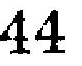44
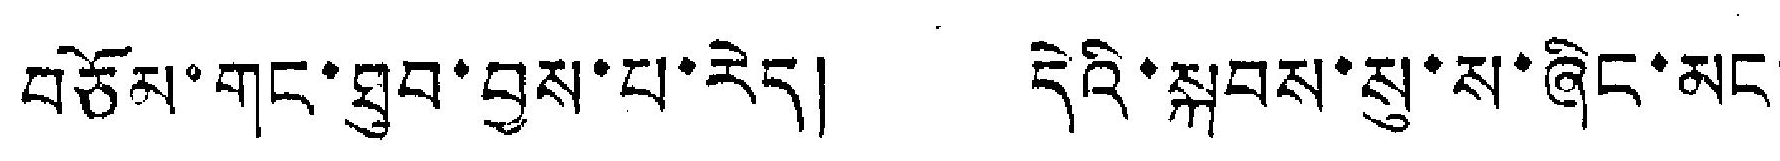བཅོམ་གང་ཐུབ་བྱས་པ་རེད། དེའི་སྐབས་སུ་ས་ཞིང་མང་
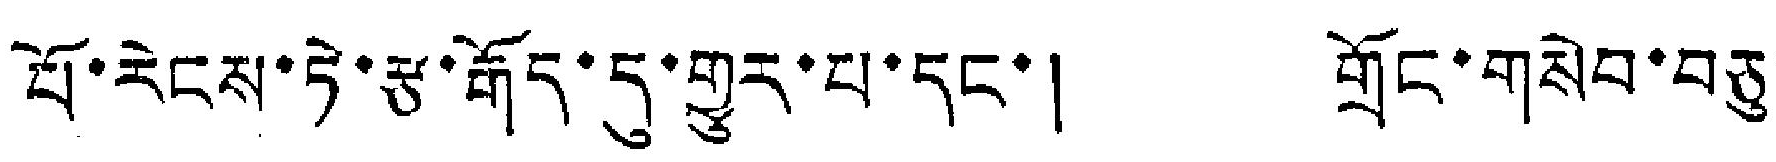པོ་རེངས་ཏེ་རྩ་རྒོད་དུ་གྱུར་པ་དང་། གྲོང་གསེབ་བཅུ་
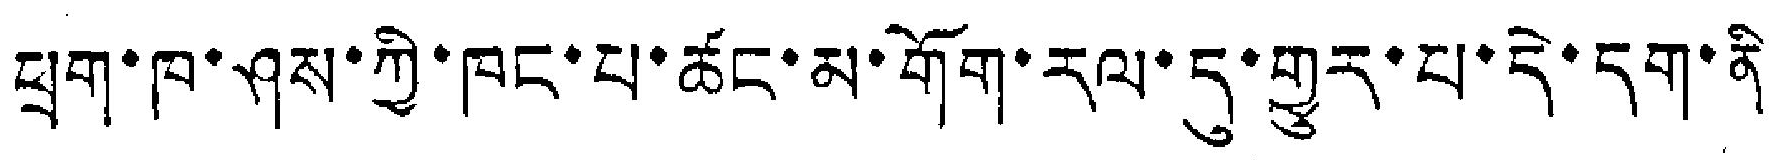ཕྲག་ཁ་ཤས་ཀྱི་ཁང་པ་ཚང་མ་གོག་རལ་དུ་གྱུར་པ་དེ་དག་ནི་
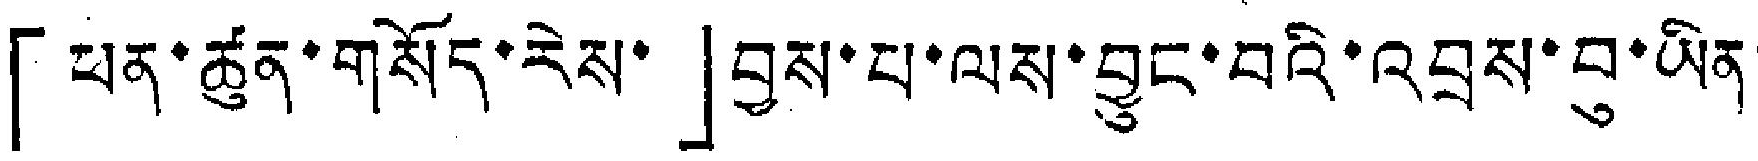「ཕན་ཚུན་གསོད་རེས་」བྱས་པ་ལས་བྱུང་བའི་འབྲས་བུ་ཡིན་
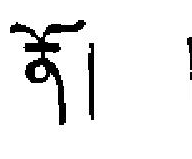ནོ། །
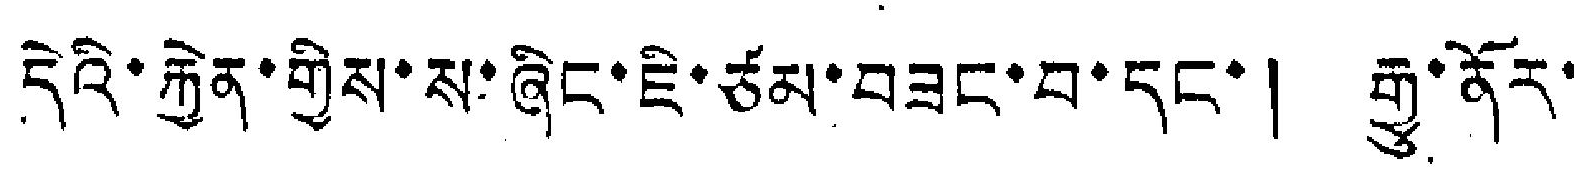དེའི་རྐྱེན་གྱིས་ས་ཞིང་ཇི་ཙམ་བཟང་བ་དང་། རྒྱུ་ནོར་
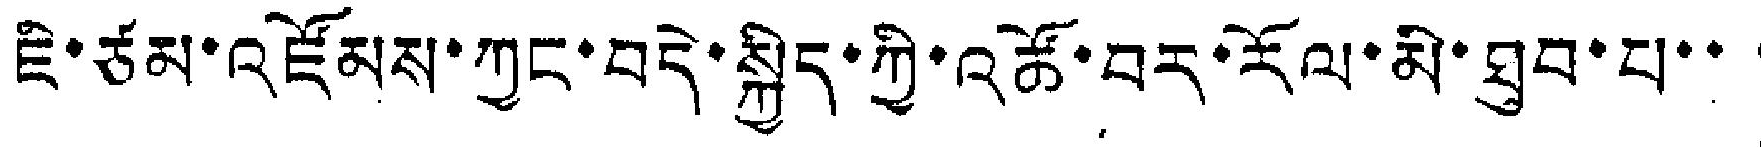ཇི་ཙམ་འཛོམས་ཀྱང་བདེ་སྐྱིད་ཀྱི་འཚོ་བར་རོལ་མི་ཐུབ་པ་་་
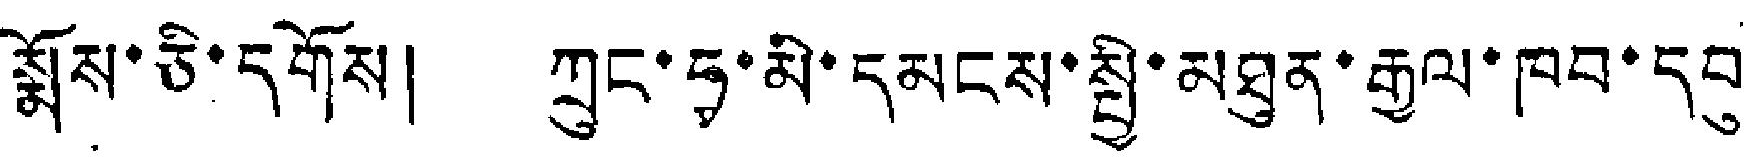སྨོས་ཅི་དགོས། ཀྲུང་ཧྭ་མི་དམངས་སྤྱི་མཐུན་རྒྱལ་ཁབ་དབུ་
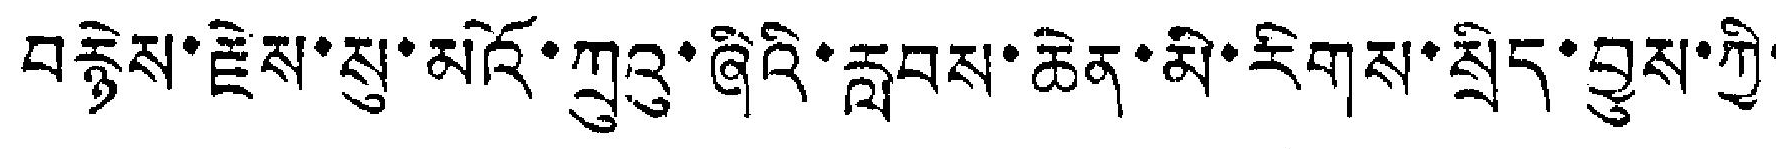བརྙེས་རྗེས་སུ་མའོ་ཀྲུའུ་ཞིའི་རླབས་ཆེན་མི་རིགས་སྲིད་བྱུས་ཀྱི་
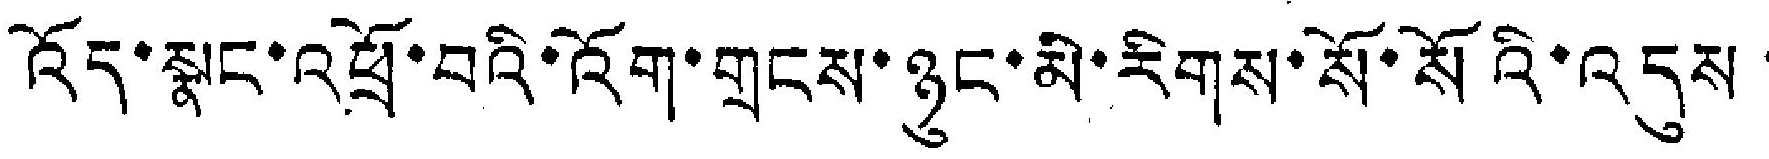འོད་སྣང་འཕྲོ་བའི་འོག་གྲངས་ཉུང་མི་རིགས་སོ་སོའི་འདུས་
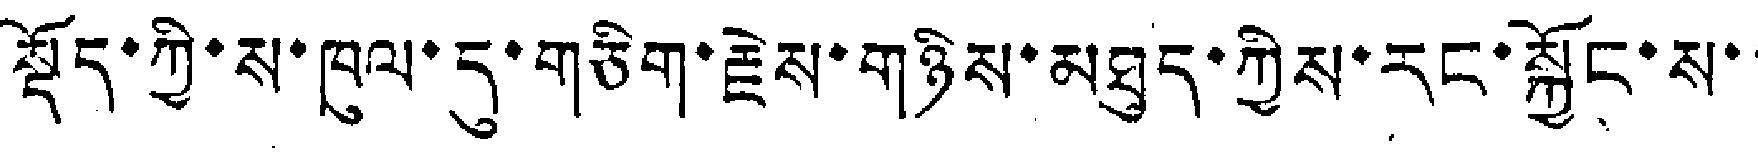སྡོད་ཀྱི་ས་ཁུལ་དུ་གཅིག་རྗེས་གཉིས་མཐུད་ཀྱིས་རང་སྐྱོང་ས་་
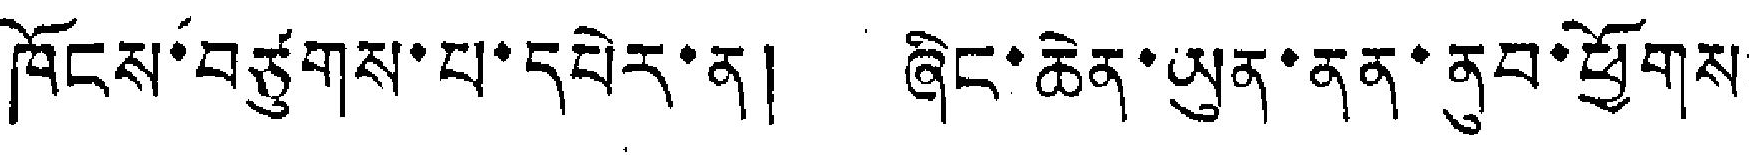ཁོངས་བཙུགས་པ་དཔེར་ན། ཞིང་ཆེན་ཡུན་ནན་ནུབ་ཕྱོགས་
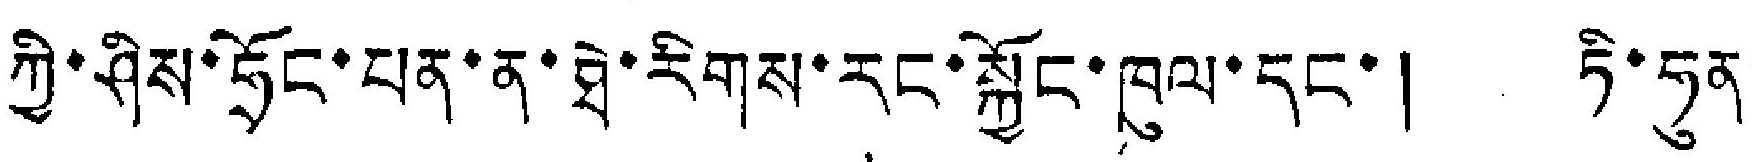ཀྱི་ཤིས་ཧྲོང་པན་ན་ཐེ་རིགས་རང་སྐྱོང་ཁུལ་དང་། ཏི་ཧུན་
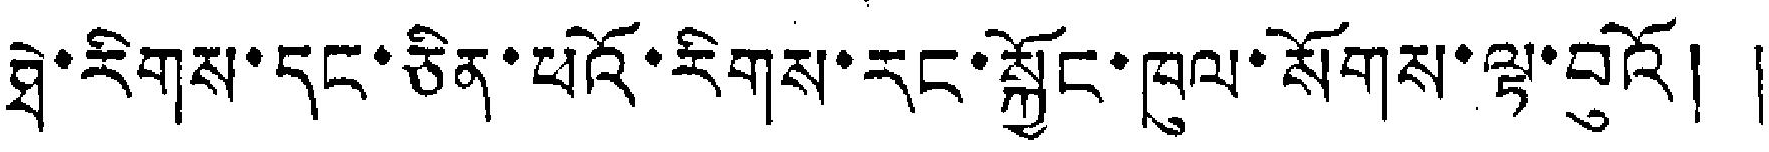ཐེ་རིགས་དང་ཅིན་ཕའོ་རིགས་རང་སྐྱོང་ཁུལ་སོགས་ལྟ་བའོ། །
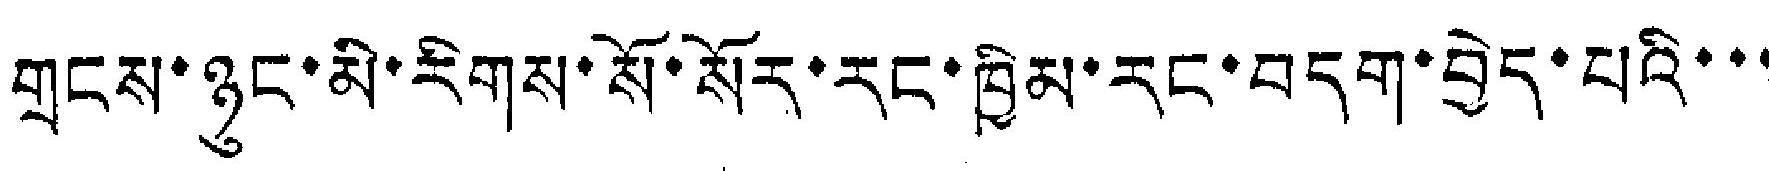གྲངས་ཉུང་མི་རིགས་སོ་སོར་རང་ཁྱིམ་རང་བདག་བྱེད་པའི་་་
